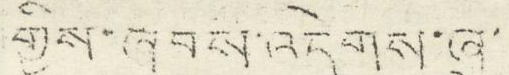གྱིས་ཞབས་འདེབས་ཞུ་
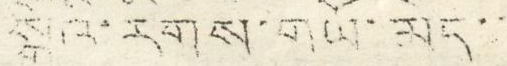སྒོའི་རིགས་གཡོ་མེད་་
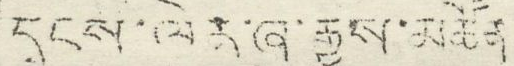དྭངས་ལེན་ཞུ་རྒྱུས་མཚོན
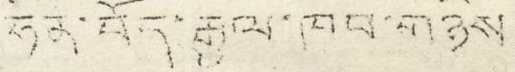ཧིན་བོད་རྒྱལ་ཁབ་གཉིས
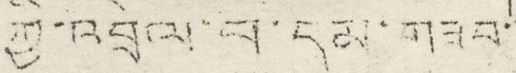ཀྱི་འབྲེལ་པ་དམ་གཟབ་
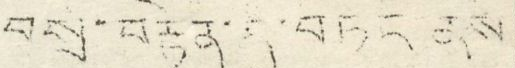བསྲ་བརྟེན་དུ་བཏང་ནས་
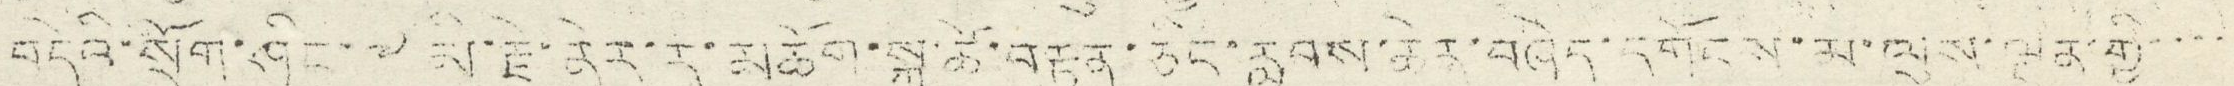བདེའི་སྲོག་ཤིང་༸མི་རྗེ་ནེར་རུ་མཆོག་སྐུ་ཚེ་བརྟན་ཅིང་རླབས་ཆེན་བཞེད་དགོངས་མ་ལུས་ལྡུན་གྱི་་་་
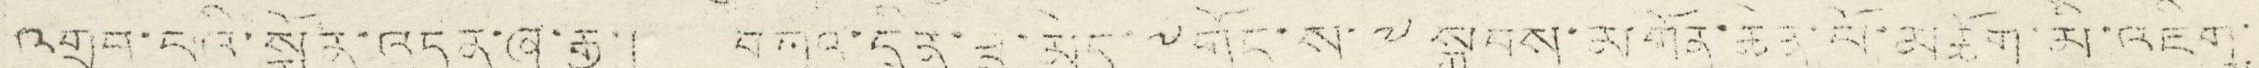འགྲུབ་པའི་སྨོན་འདུན་ཞུ་རྒྱུ་། བཀའ་དྲིན་བླ་མེད་༸གོང་ས་༸སྐྱབས་མགོན་ཆེན་པོ་མཆོག་མི་འཇིགས་
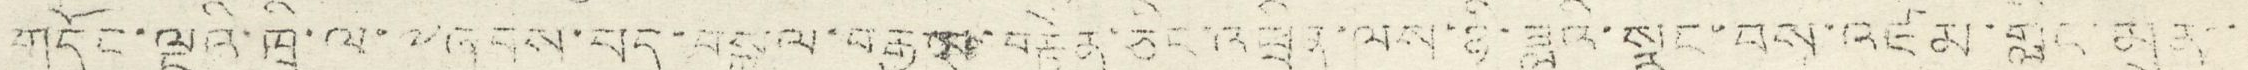གདོང་ལྔའི་ཁྲི་ལ་༸ཞབས་པད་བསྐལ་བརྒྱ་བརྟེན་ཅིང་འཕྲིན་ལས་ཉི་ཟླའི་སྣང་བས་འཛམ་གླིང་མུན་་
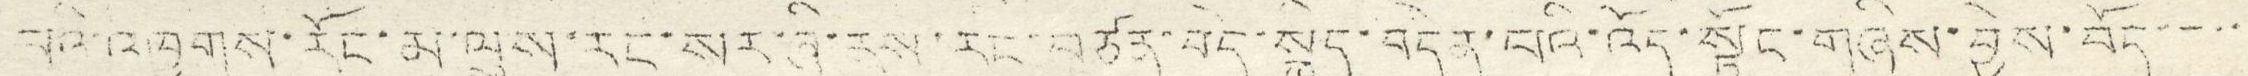པའི་འཁྱགས་རོང་མ་ལུས་རང་སར་ཞི་ནས་རང་བཙན་བདེ་སྐྱིད་བདེན་པའི་འོད་སྟོང་གཞིས་བྱེས་བོད་་་་་
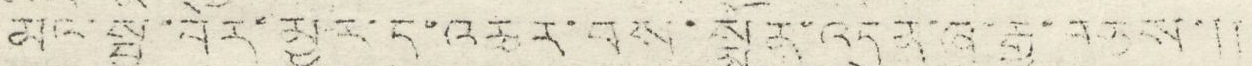མིའི་སྤྱི་བོར་མྱུར་དུ་འཆར་བས་སྨོན་འདུན་ཞུ་རྒྱུ་བཅས་།།
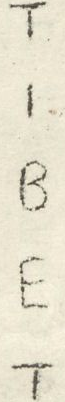TIBET
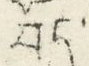བོད་
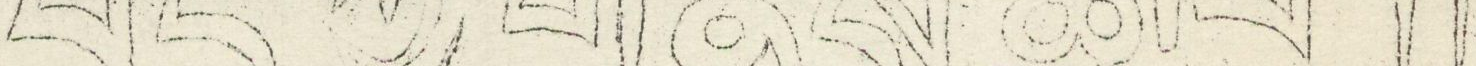བོད་ཀྱི་གནས་ཚུལ་།།
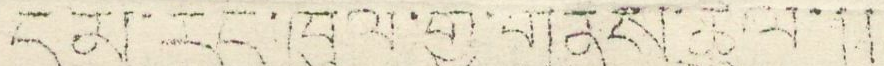ངམ་རིང་ཁུལ་གྱི་གནས་ཚུལ་།།
